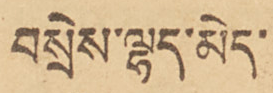བསྲེས་ལྷད་མེད་
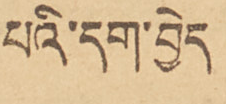པའི་དག་བྱེད
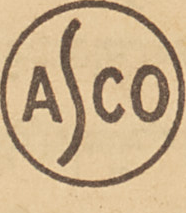ASCO
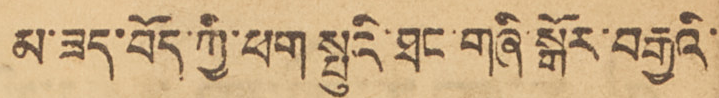མ་ཟད་བོད་ཀྱི་ཕག སྤུའི་ཐང་གཞི་སྒོར་བརྒྱའི་
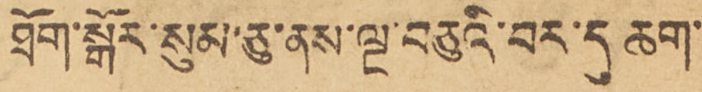ཐོག་སྒོར་སུམ་ཅུ་ནས་ལྔ་བཅུའི་བར་དུ ཆག་
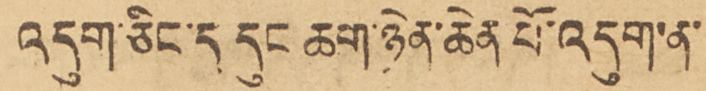འདུག་ཅིང་ད དུང ཆག་ཉེན་ཆེན པོ་འདུག་ན་
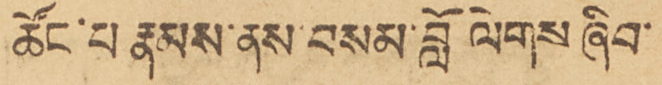ཚོང་པ རྣམས་ནས་བསམ་བློ ལེགས ཞིབ་
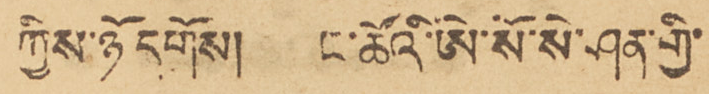ཀྱིས་ཉོདགོས། ང་ཚོའི་ཨེ་སོ་སེ་ཤན་གྱི་
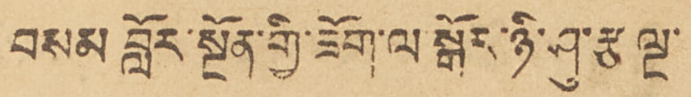བསམ བློར་སྔོན་གྱི་ཟོག་ལ་སྒོར་ཉི་ཤུ་རྩ ལྔ་
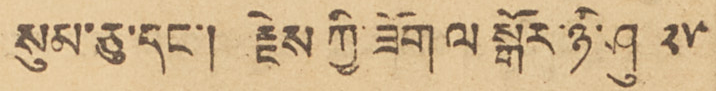སུམ་ཅུ་དང་། རྗེས ཀྱི་ཟོག ལ སྒོར་ཉི་ཤུ ༢༥
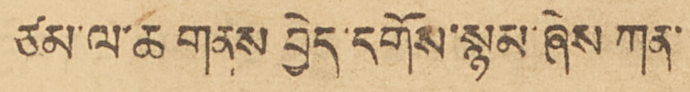ཙམ་ལ་ཚ གནས བྱེད་དགོས་སྙམ་ཞེས ཀན་
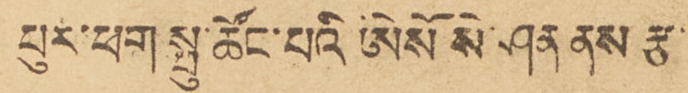པུར་ཕག སྤུ་ཚོང་པའི ཨེསོ སེ་ཤན ནས རྩ་
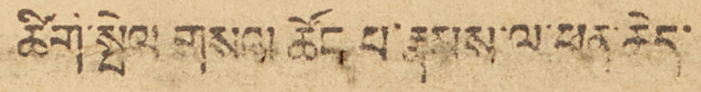ཚིག་སྤེལ གསལ ཚོང པ་རྣམས་ལ་ཕན་ཆེད་
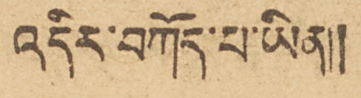འདིར་བཀོད་པ་ཡིན།།
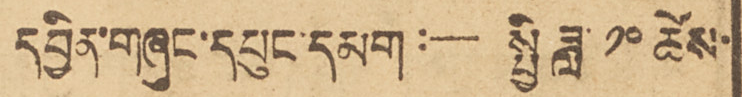དབྱིན་གཞུང་དཔུང་དམག :— སྤྱི ཟླ་ ༡༠ ཚེས་
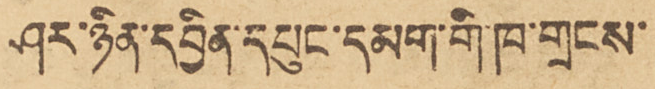ཤར་ཉིན་དབྱིན་དཔུང་དམག་གི་ཁ་གྲངས་
